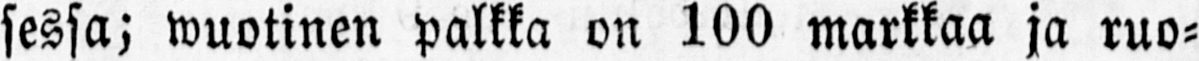sessa; wuotinen palkka on 100 markkaa ja ruo-
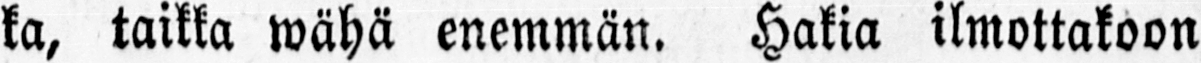ka, taikka wähä enemmän. Hakia ilmottakoon
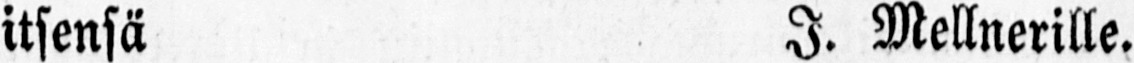itsensä I. Mellnerille.
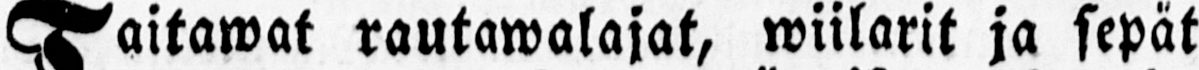Taitawat rautawalajat, wiilarit ja sepät
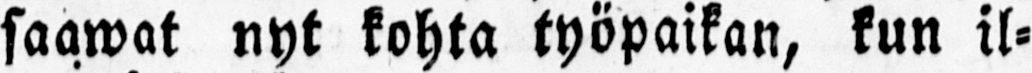saawat nyt kohta työpaikan, kun il-
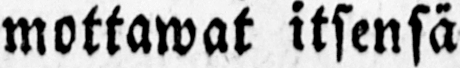mottawat itsensä
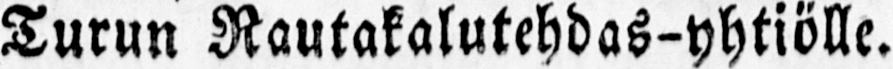Turun Rautakalutehdas-yhtiölle.
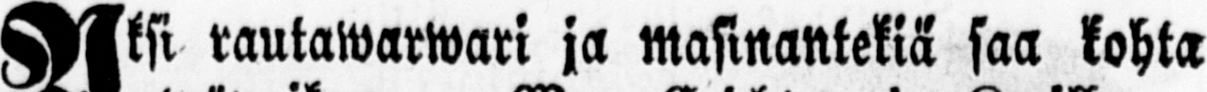Yksi rautawarwari ja masinantekiä saa kohta
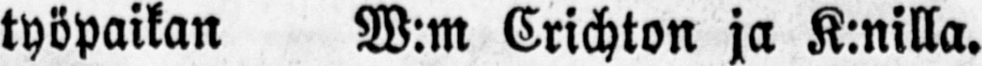työpaikan W:m Crichton ja K:nilla.
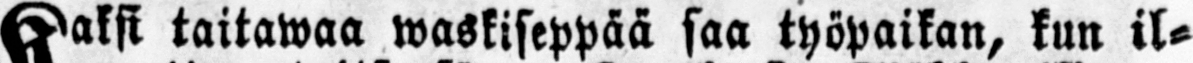Kaksi taitawaa waskiseppää saa työpaikan, kun il-
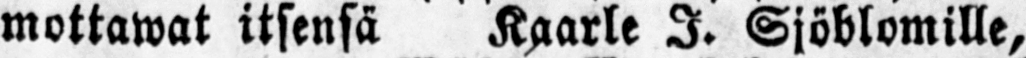mottawat itsensä Kaarle I. Sjöblomille,
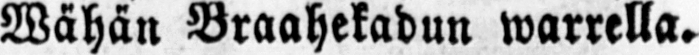Wähän Braahekadun warrella.
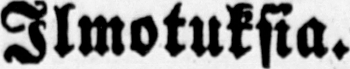Ilmotuksia.
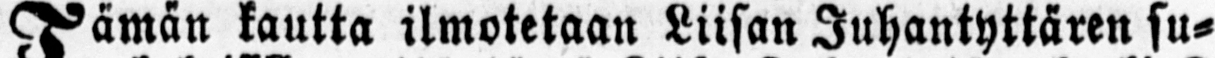Täman kautta ilmotetaan Liisan Juhantyttären su-
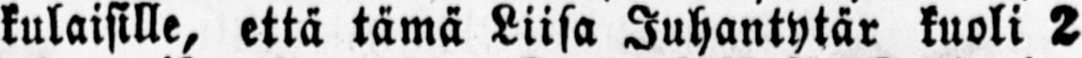kulaisille, että tämä Liisa Juhantytär kuoli 2
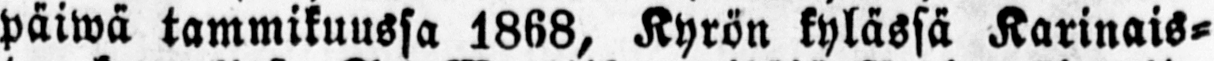päiwä tammikuussa 1868, Kyrön kylässä Karinais-
